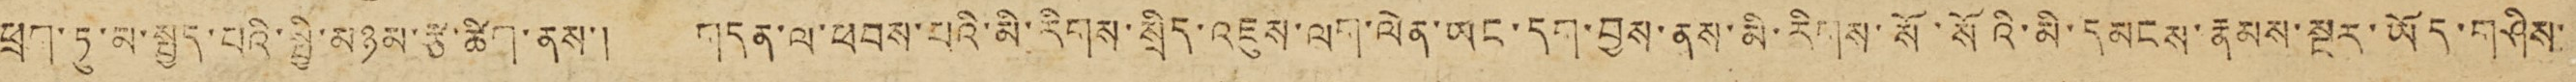ཕྲག་ཏུ་མསྤྱད་པའི་སྤྱི་མཉམ་རྩ་ཚིག་ནས་། གདན་ལ་ཕབས་པའི་མི་རིགས་སྲིད་འཇུས་ལག་ལེན་ཡང་དག་བྱས་ནས་མི་རིགས་སོ་སོའི་མི་དམངས་རྣམས་སྔར་ཡོད་གཤིས་
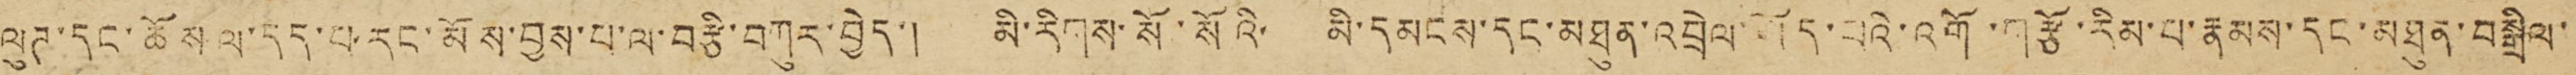ལུཊ་དང་ཆོས ལ་དད་པ་རང་མོས་བྱས་པ་ལ་བརྩི་བཀུར་བྱེད། མི་རིགས་སོ་སོའི་ མི་དམངས་དང་མཐུན་འབྲེལ་ཡོད་པའི་འགོ་གརྩོ་རིམ་པ་རྣམས་དང་མཐུན་བསྒྲིལ་
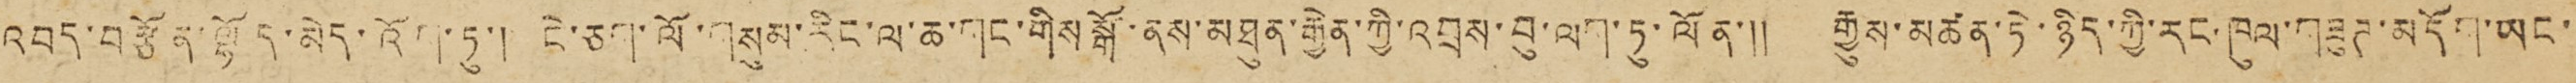འབད་བརྩོན་ལྷོད་མེད་འོག་ཏུ་། ངེ་ཅག་ལོ་གསུམ་རིང་ལ་ཆ་གང་གིས སྒོ་ནས་མཐུན་རྒྱེན་ཀྱི་འབྲས་བུ་ལག་ཏུ་ལོང་༎ རྒྱུས་མཚན་ཏེ་ཉིད་ཀྱི་རང་ཁུལ་གཟུཊ་མདོག་ཡང་
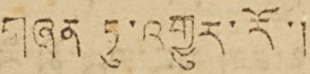གཞན ཏུ་འགྱུར་རོ་།
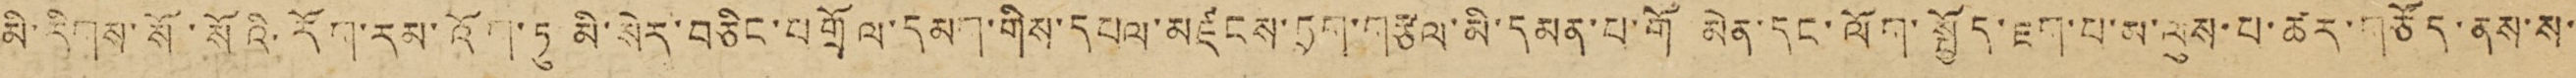མི་རིགས་སོ་སོའི་རོག་རམ་འོག་ཏུ མི་སེར་བཅིང་བགྲོལ་དམག་གིས་དཔལ་མཛངས་ཏྲག་གརྩལ་མི་དམན་པ་གོ མེན་དང་ལོག་སྤྱོད་ཇག་པ་མ་ལུས་པ་ཚར་གཙོད་ནས་ས་
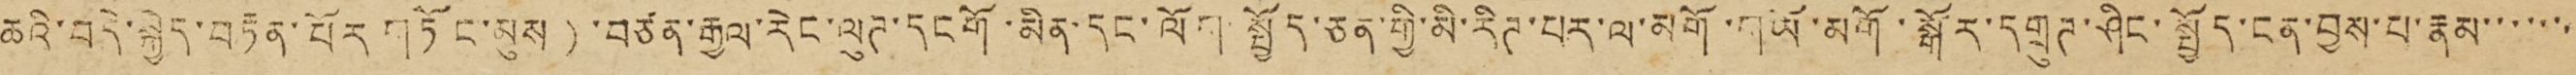ཆའི་བདེ་སྐྱེད་བརྟན་པོར གཏོང་མུས )་བཙན་རྒྱལ་རེང་ལུཊ་དངགོ་མིན་དང་ལོག་སྤྱོད་ཅན་གྱི་མི་རིཊ་པར་ལ་མགོ་གཡོ་མགོ་སྒོར་དགྲུཊ་ཤིང་སྤྱོད་ངན་བྱས་པ་རྣམ་་་་་་་
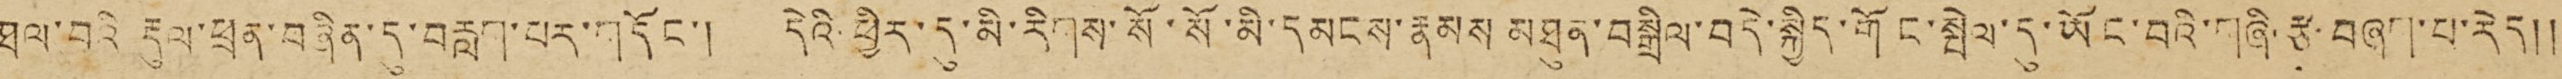ཐལ་བའི རྡུལ་ཕྲན་བཞིན་དུ་བརླག་པར་གདོང་། དེའི་ཕྱིར་དུ་མི་རིགས་སོ་སོ་མི་དམངས་རྣམས མཐུན་བསྒྲིལ་བདེ་སྐྱིད་གོང་སྤེལ་དུ་ཡོང་བའི་གཞི་རྩ་བཞག་པ་རེད༎
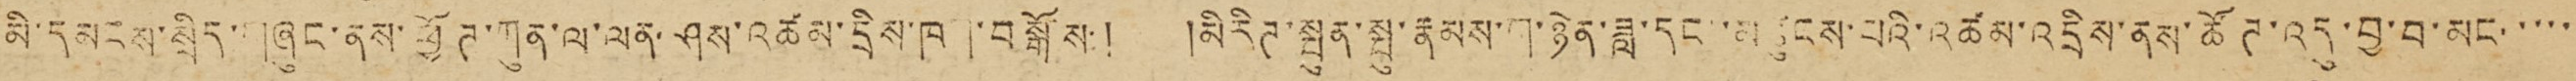མི་དམངས་སྲིད་གཞུང་ནས་ཕྱོཊ་ཀུན་ལ་ལན་ཤས་འཚམ་དྲིས་ཁག་བསྒོས་། མི རིཊ་སྤུན་སྤུ་རྣམས་ག་ཉེན་ཟླ་དང་མཚུངས་པའི་འཚམ་འདྲིས་ནས་ཚོཊ་འདུ་བྱ་བ་མང་་་་་
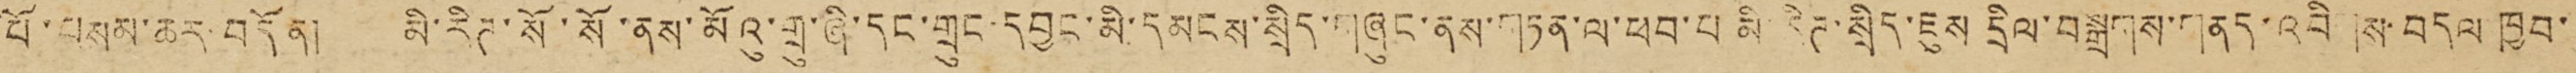པོ་བསམ་ཆར་བདོན། མི་རིཊ་སོ་སོ་ནས་མོའུ་གྲུ་ཞི་དང་གྲུང་དབྱང་མི་དམངས་སྲིད་གཞུང་ནས་གཏན་ལ་ཕབ་པ མི་རིཊ་སྲིད་ཇུས དྲིལ་བསྒྲགས་གནད་འབིགས་བདལ ཁྱབ་
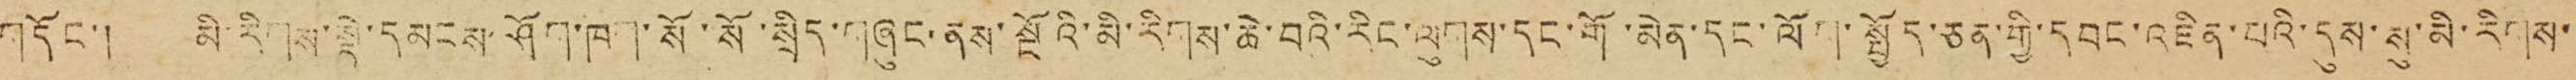གདོང་། མི་རིགས་སྡེ་དམངས་ཤོག་ཁག་སོ་སོ་སྲིད་གཞུང་ནས་སྔོའི་མི་རིགས་ཆེ་བའི་རིང་ལུགས་དང་གོ་མེན་དང་ལོག་སྤྱོད་ཅན་གྱི་དབང་འཛིན་པའི་དུས་སུ་མི་རིགས་
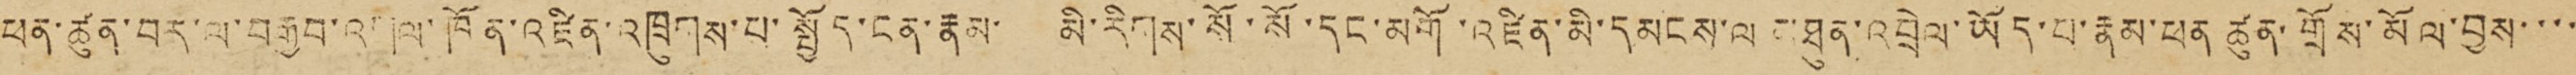ཕན་ཚུན་བར་ལ་བརྒྱབ་འགལ་ཁོན་འཛིན་འཁྲུགས་པ་སྤྱོད་ངན་རྣམ་ མི་རིགས་སོ་སོ་དང་མགོ་འཛིན་མི་དམངས་ལ མཐུན་འབྲེལ་ཡོད་པ་རྣམ་ཕན ཚུན་གྲོས་མོལ་བྱས་་་་
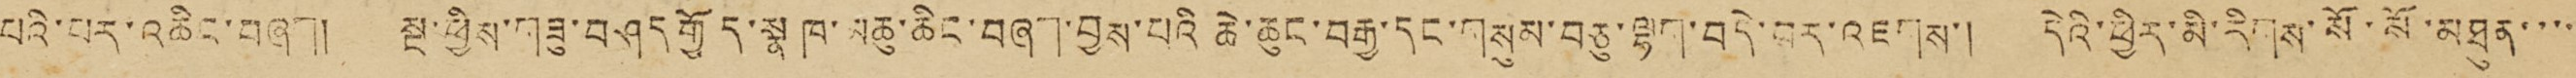པའི་པར་འཆིང་བཞག། སྔ་ཕྱིས་གཟུ་བཤད གྱོད་སྣ ཁ་མཆུ་ཆིང་བཞག་བྱས་པའི ཆེ་ཆུང་བརྒྱ་དང་གསུམ་བཅུ་ལྷག་བདེ་བར་འཇགས་། དེའི་ཕྱིར་མི་རིགས་སོ་སོ་མཐུན་་་་
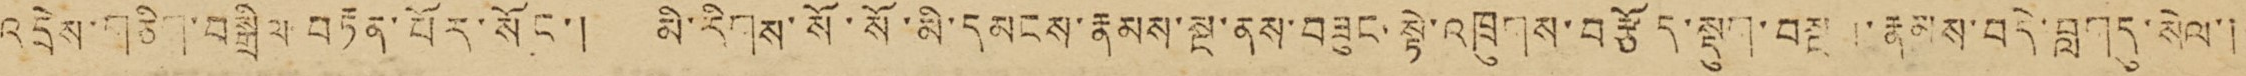འདྲེས་གཅིག་བསྒྲིལ བརྟན་པོར་སོང་། མི་རིགས་སོ་སོ་མི་དམངས་རྣམས་སྔ་ནས་བཟུང་སྟེ་འཁྲུགས་བརྩོད་སྡུག་བསྔལ་རྣམས་བདེ་གླགདུ་སེལ་།
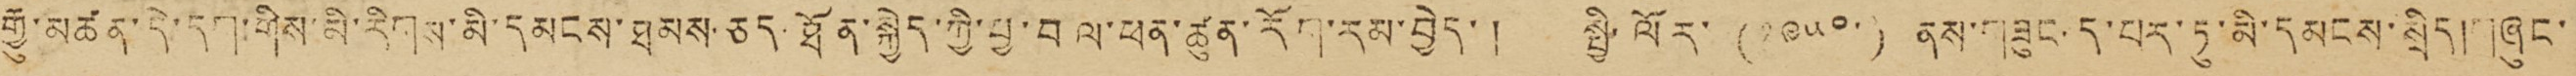རྒྱུ་མཚན་དེ་དག་གིས་མི་རིགས་མི་དམངས་ཐམས་ཅད་ཐོན་སྐྱེད་ཀྱི་བྱ་བ ལ་ཕན་ཚུན་རོག་རམ་བྱེད་། སྤྱི་ལོར་ (༡༩༥༠་) ནས་གཞུང་ད་པར་ཏུ་མི་དམངས་སྲིད།གཞུང་
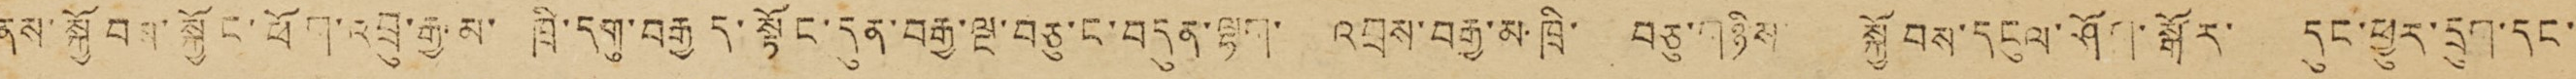ནས་སྐྱོབས་སྐྱོང་ཕོག་འབྲུ་རྒྱ་མ་ ཁྲི་དགུ་བརྒྱ ད་སྟོང་དུན་བརྒྱ་ལྔ་བཅུ་ང་བདུན་ལྷག་ འབྲས་བརྒྱ་མ་ཁྲི་ བཅུ་གཉིས་ སྐྱོབས་དངུལ་ཤོག་སྒོར་ དུང་ཕྱུར་དྲུག་དང་
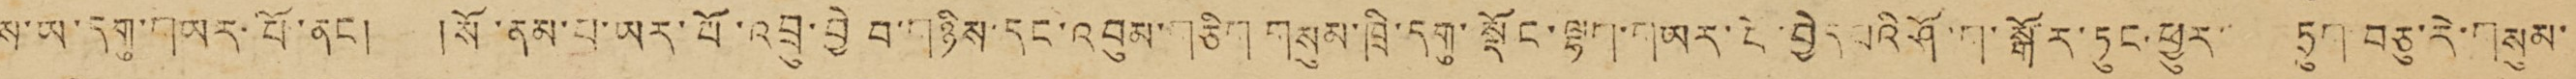ས་ཡ་དགུ་གཡར་པོ་ནང། །སོ་ནམ་པ་ཡར་པོ་འབྲུ་བྱེ བ་གཉིས་དང་འབུམ་གཅིག གསུམ་ཁྲི་དགུ་སྡོང་ལྷག་གཡར་བེ་བྱེད པའི ཤོ་ག་སྒོར་ཏུང་ཕྱུར་ ཏྲུག་བཅུ་རེ་གསུམ་
